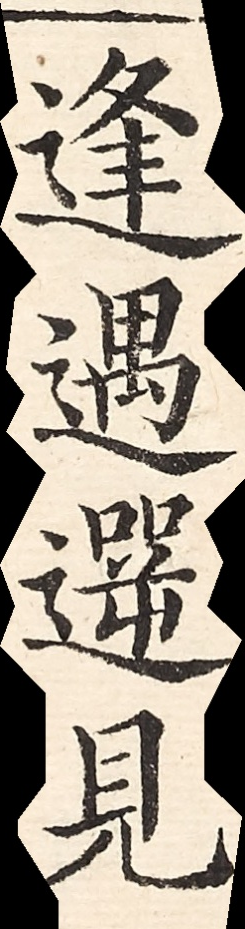逢遇遻見
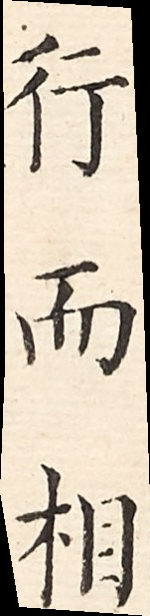行而相
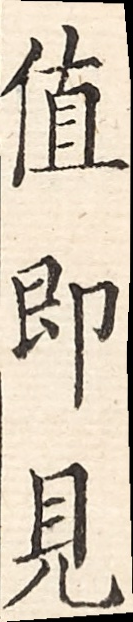值即見
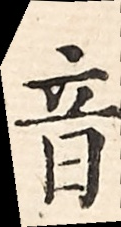音
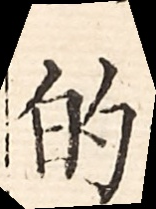的
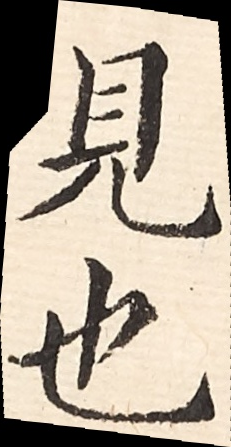見也
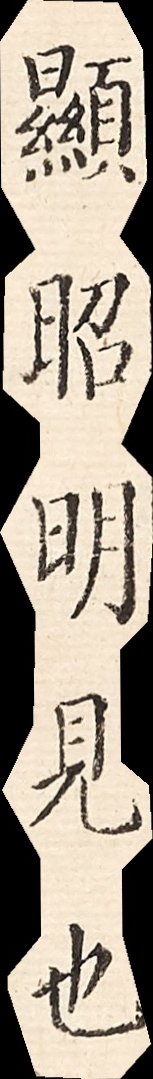顯昭明見也
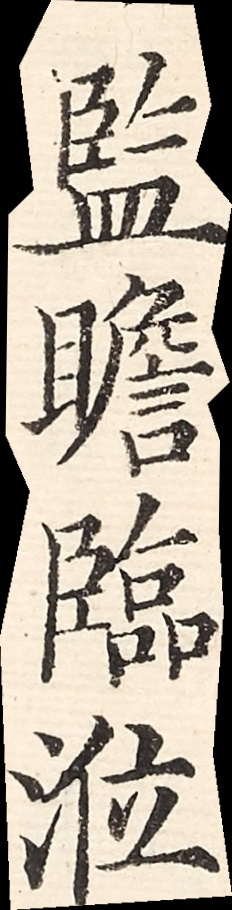監瞻臨涖
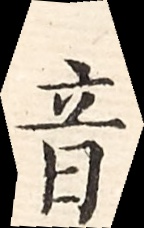音
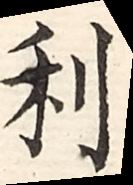利
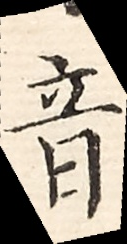音
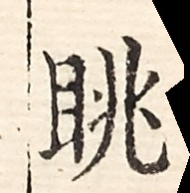眺
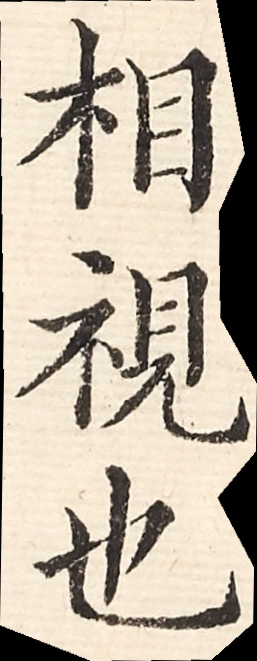相視也
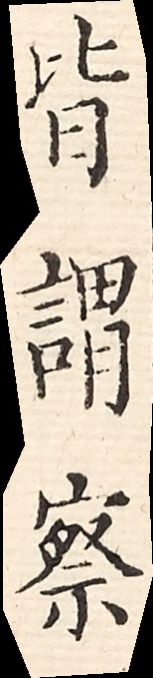皆謂察
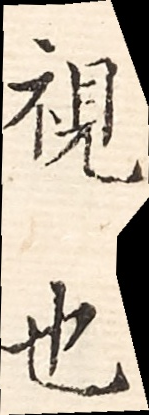視也
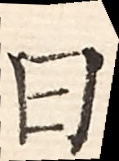曰
